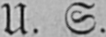U. S.
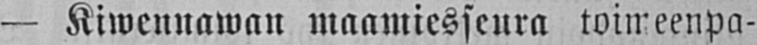— Kiwennawan maamiesseura toimeenpa-
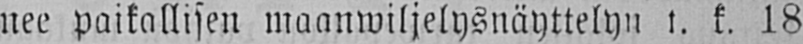nee paikallisen maanwiljelysnäyttelyn t. k. 18
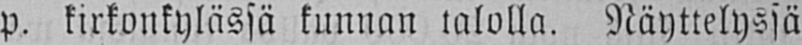p. kirkonkylässä kunnan talolla. Näyttelyssä
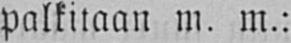palkitaan m. m.:
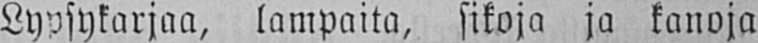Lypsykarjaa, lampaita, sikoja ja kanoja
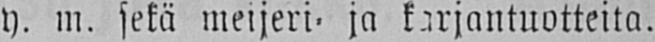y. m. sekä meijeri- ja karjantuotteita.
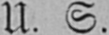U. S.
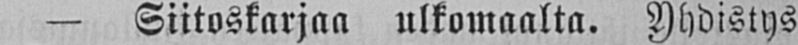— Siitoskarjaa ulkomaalta. Yhdistys
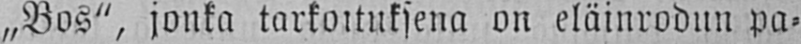„Bos", jonka tarkoituksena on eläinrodun pa-
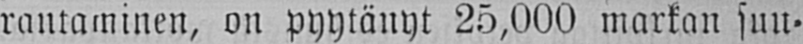rantaminen, on pyytänyt 25,000 markan suu-
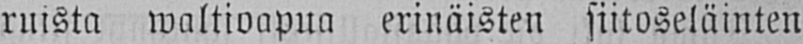ruista waltioapua erinäisten siitoseläinten
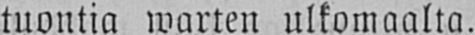tuontia warten ulkomaalta.
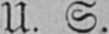U. S.
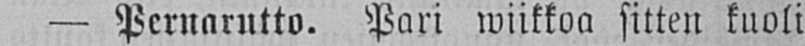— Pernarutto. Pari wiikkoa sitten kuoli
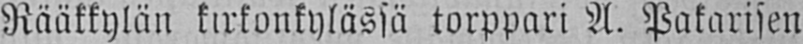Rääkkylän kirkonkylässä torppari A. Pakarisen
